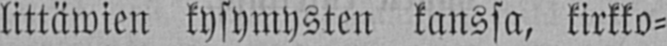littäwien kysymysten kanssa, kirkko-
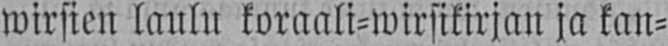wirsien laulu koraali-wirsikirjan ja kan-
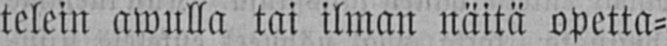telein awulla tai ilman näitä opetta-
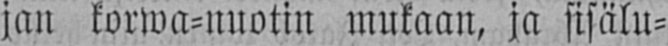jan korwa-nuotin mukaan, ja sisälu-
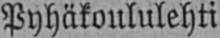Pyhäkoululehti.
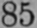85
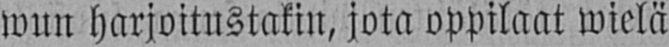wun harjoitustakin, jota oppilaat wielä
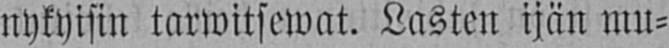nykyisin tarwitsewat. Lasten ijän mu-
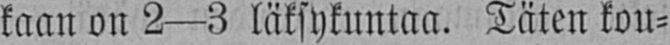kaan on 2-3 läksykuntaa. Täten kou-
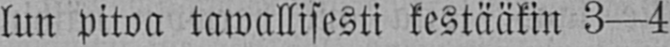lun pitoa tawallisesti kestääkin 3 —4
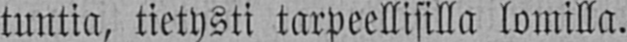tuntia, tietysti tarpeellisilla lomilla.
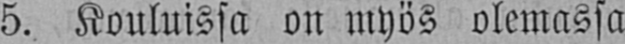5. Kouluissa on myös olemassa
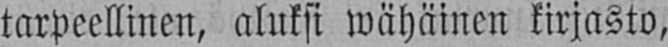tarpeellinen, aluksi wähäinen kirjasto,
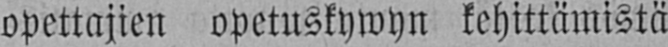opettajien opetuskywyn kehittämistä
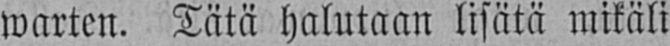warten. Tätä halutaan lisätä mikäli
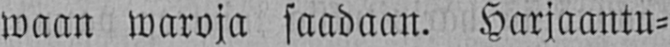waan waroja saadaan. Harjaantu-
